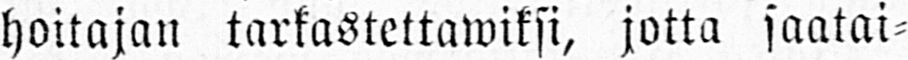hoitajan tarkastettawiksi, jotta saatai-
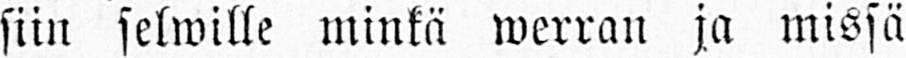siin selwille minkä werran ja missä
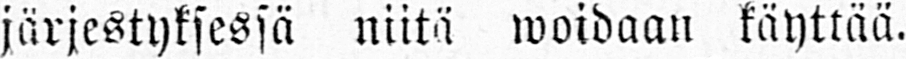järjestyksessä niitä woidaan käyttää.
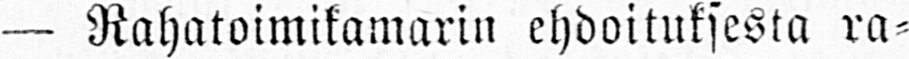— Rahatoimikamarin ehdoituksesta ra-
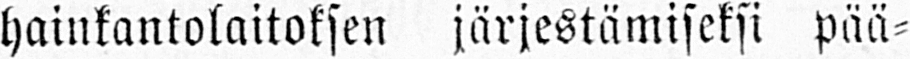hainkantolaitoksen järjestämiseksi pää-
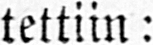tettiin:
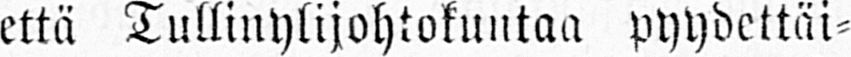että Tullinylijohtokuntaa pyydettäi-
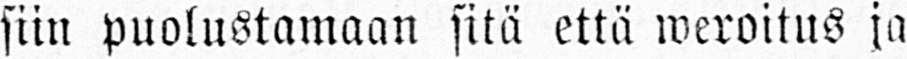siin puolustamaan sitä että weroitus ja
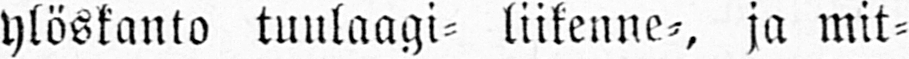ylöskanto tuulaagi- liikenne-, ja mit-
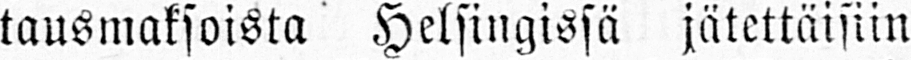tausmaksoista Helsingissä jätettäisiin
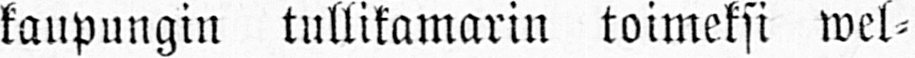kaupungin tullikamarin toimeksi wel-
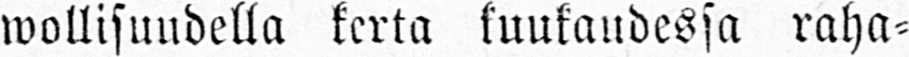wollisuudella kerta kuukaudessa raha-
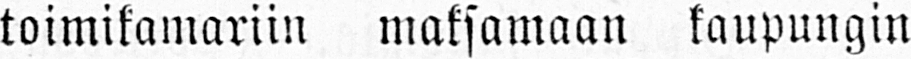toimikamariin maksamaan kaupungin
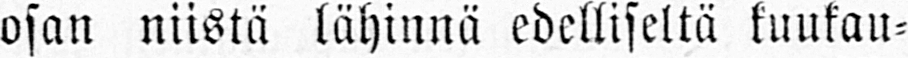osan niistä lähinnä edelliseltä kuukau-
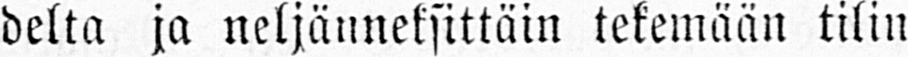delta ja neljänneksittäin tekemään tilin
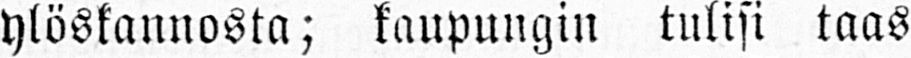ylöskannosta; kaupungin tulisi taas
